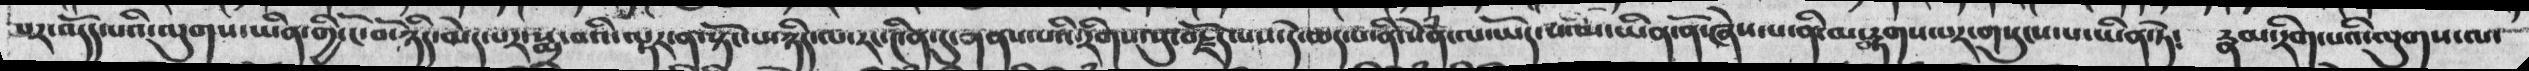པར་འདོད་པའི་ལུགས་ཡིན་གྱི་ངོ་བོ་ཉིད་མེད་པར་སྨྲ་བའི་ལྟར་ན་སྟོང་པ་ཉིད་ལ་རང་༤ིན་དུ་གནས་པའི་རིགས་སུ་བརྗོད་པས་དེ་ཆད་པ་ནི་སེཾན་ལ་ཡོད་པ་མ་ཡིན་ནོ་ཞེས་པ་ནི་མ་རྟགས་པར་གསུངས་པ་ཡིན་ཏེ༴ རྣམ་རིགས་པའི་ལུགས་ལ་
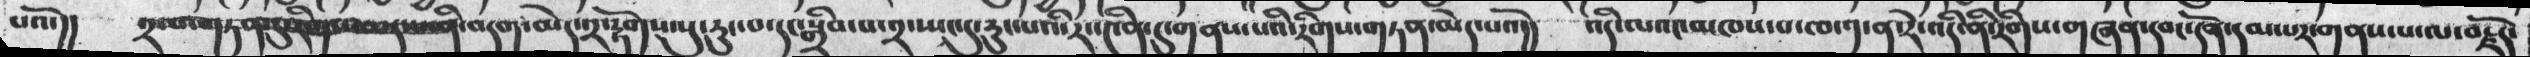པའོ་།།  ༢་ལ་གཏན་དུ་རིགས་འཆད་པ་ནི་བདག་མེད་༢་རྟོགས་སུ་རུང་བ་དང་སྒྲིབ་པ་༢་སྤང་དུ་རུང་པའི་རང་༤ནི་དུ་གནས་པའི་རིགས་གཏན་མེད་པའོ།།  འདི་ལའང་མཁས་པ་ཁ་༡་ན་རེ་འདི་ནི་རིགས་གཞན་དབང་དོན་དམ་པར་གནས་པ་ལ་བརྗོད་
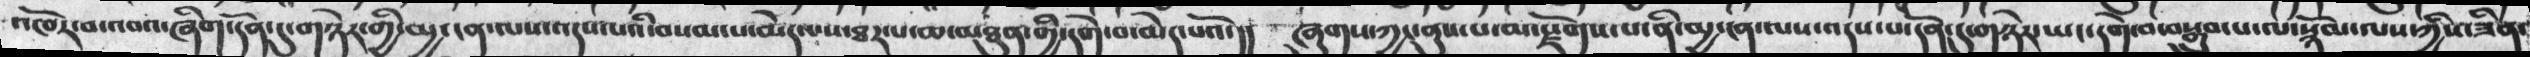འཁོར་བ་འབའ་ཞིག་དོན་དུ་གཉེར་གྱི་མྱ་ངན་ལས་འདས་པའི་བསམ་པ་མེད་པས་ཐར་པ་ཆ་མཐུན་གྱི་དགེ་བ་མེད་པའོ་།།  ཞུགས་ཀྱང་ནུས་པ་མ་རྫོགས་པ་ནི་མྱ་ངན་ལས་འདས་པ་དོན་དུ་གཉེར་ཡང་དགེ་བ་བསྒྲུབ་པ་ལ་སྙོམ་ལས་ཀྱིས་ཟིན་
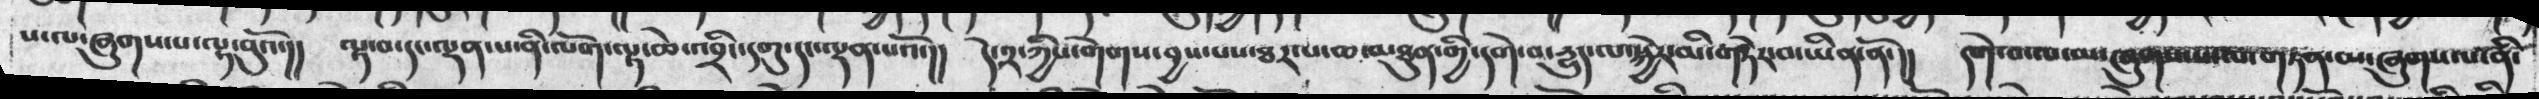ས་ལ་ཞུགས་པ་ལྟ་བུའོ་།།  ལྟ་བ་དང་ལྡན་པ་ནི་ལོག་ལྟ་ཆེ་འབྲིང་དགུ་དང་ལྡན་པའོ་།།  དེ་༢་ཀྱིས་གེགས་བྱས་པས་ཐར་པ་ཆ་མཐུན་གྱི་དགེ་བ་རྱུད་ལ་སྐྱེར་མི་གཏེར་མ་ཡིན་ནོ་།།  དགེ་བ་ལ་མ་ཞུགས་པ་ལ་གཏན་མ་ཞུགས་པ་ནི་
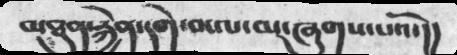མཐུན་རྐྱེན་དགེ་བ་ལ་མ་ཞུགས་པའོ་།།
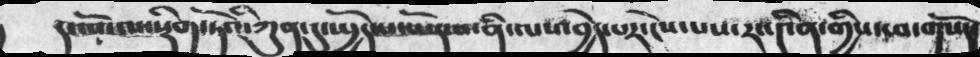དང་པོ་ལ་སྡིག་ཏོའི་ཀུན་དུ་སྤྱོད་པ་ཡོད་པ་ནི་ལས་བྱེད་པར་ངེས་པས་རང་༤ིན་གྱིས་ཕ་གསོད་
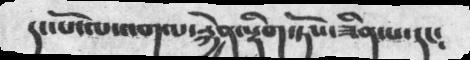དང་པོ་ལ་འགལ་རྐྱེན་སྡིག་ཏོས་ཟིན་པ་དང༴
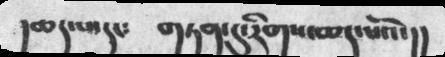།ཆད་པ་དང༴ གཏན་དུ་རིགས་ཆད་པའོ་།།
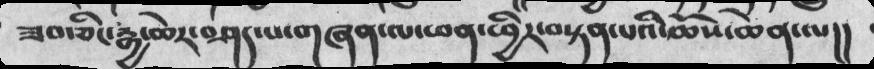ཟབ་ཅིང་རྒྱ་ཆེར་བཤད་པ་གཞན་ལ་ཕན་ཕྱིར་བསྟན་པའི་ཆོས་ཆེན་ལ།།
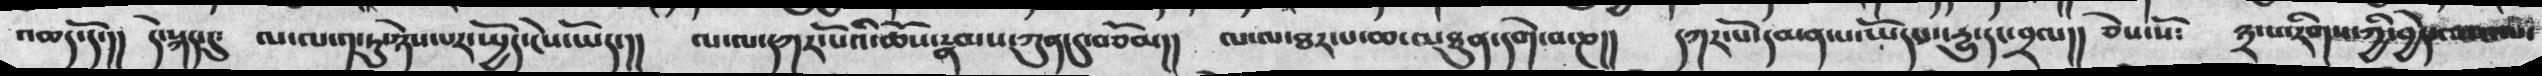འཆད་དོ་།། དེ་སྐད་དུ༴  ལ་ལ་༡་ཏུ་ཉེས་པར་སྤྱོད་ངེས་ཡོད་།།  ལ་ལ་དཀར་པོའི་ཆོས་རྣམས་ཀུན་དུ་བཅོམ།།  ལ་ལ་ཐར་པ་ཆ་མཐུན་དགེ་བ་ཎ།།  དཀར་པོ་དམན་པ་ཡོད་པ་དྱུ་དང་བྲལ།། ཅེས་སོ༴  ༣་པ་རིགས་ཀྱི་བྱེད་ལས་ལ་
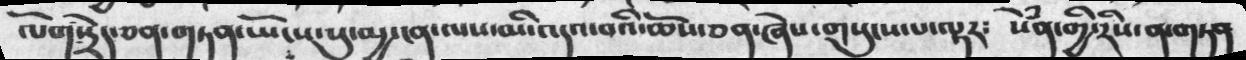ལོག་དྲེད་ཅན་གཏན་ཡོངས་སུ་མྱ་ངན་ལས་མི་འདའ་བའི་ཆོས་ཅན་ཞེས་གསུངས་པ་ལྟར༴  སེཾན་གྱི་རིས་ན་གཏན
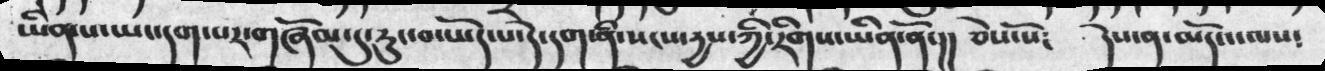ཡིན་པ་ཡང་དག་པར་གཞོམ་དུ་རུང་བ་ཡོད་པ་དེ་དག་ནི་སངས་རྒྱས་ཀྱི་རིགས་ཡིན་ནོ་།།  ཅེས་སོ༴  དེས་ན་མདོའ་ལས༴
